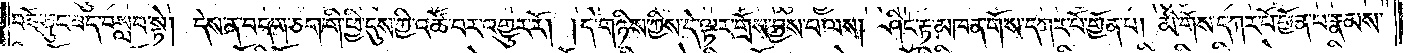བཟོ་ཅུང་ཟད་བསླབ་སྟེ། དེས་ན་བདག་ཅག་གི་ཕྱི་དུས་ཀྱི་འཚོ་བར་འགྱུར་རོ། །དེ་གཉིས་ཀྱིས་དེ་ལྟར་གྲོས་བྱས་པ་ལས། ཤིང་རྟ་མཁན་གོས་དཀར་པོ་གྱོན་པ། མི་གོས་དཀར་པོ་གྱོན་པ་རྣམས་
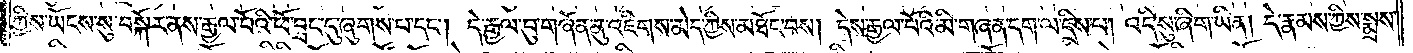ཀྱིས་ཡོངས་སུ་བསྐོར་ནས་རྒྱལ་པོའི་ཕོ་བྲང་དུ་ཞུགས་པ་དང༌། དེ་རྒྱལ་བུ་གཞོན་ནུ་འཇིགས་མེད་ཀྱིས་མཐོང་བས། དེས་རྒྱལ་པོའི་མི་གཞན་དག་ལ་དྲིས་པ། འདི་སུ་ཞིག་ཡིན། དེ་རྣམས་ཀྱིས་སྨྲས་
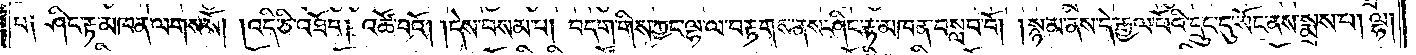པ༑ ཤིང་རྟ་མཁན་ལགས་སོ། །འདི་ཅི་འཐོབ། འཚོ་བའོ། །དེས་བསམ་པ། བདག་གིས་ཀྱང་ལྷ་ལ་བརྟགས་ནས་ཤིང་རྟ་མཁན་བསླབ་བོ། །སྙམ་ནས་དེ་རྒྱལ་པོའི་དྲུང་དུ་སོང་ནས་སྨྲས་པ། ལྷ།
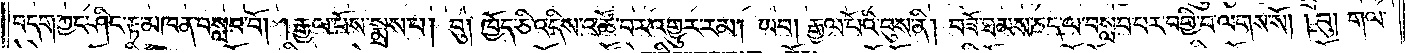བདག་ཀྱང་ཤིང་རྟ་མཁན་བསླབ་བོ། །རྒྱལ་པོས་སྨྲས་པ། བུ། ཁྱོད་ཅི་འདིས་འཚོ་བར་འགྱུར་རམ། ཡབ། རྒྱལ་པོའི་བུས་ནི། བཟོ་ཐམས་ཅད་ལ་བསླབ་པར་བགྱི་བ་ལགས་སོ། །བུ། གལ་
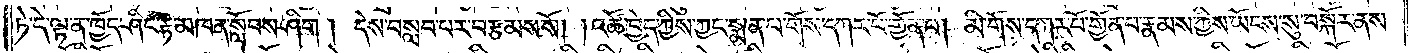ཏེ་དེ་ལྟ་ན་ཁྱོད་ཤིང་རྟ་མཁན་སློབས་ཤིག །དེས་བསླབ་པར་བརྩམས་སོ། །འཚོ་བྱེད་ཀྱིས་ཀྱང་སྨན་པ་གོས་དཀར་པོ་གྱོན་པ། མི་གོས་དཀར་པོ་གྱོན་པ་རྣམས་ཀྱིས་ཡོངས་སུ་བསྐོར་ནས་
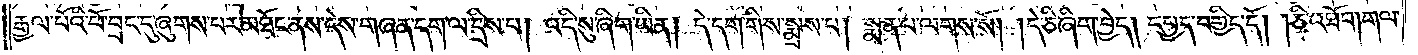རྒྱལ་པོའི་ཕོ་བྲང་དུ་ཞུགས་པར་མཐོང་ནས་དེས་གཞན་དག་ལ་དྲིས་པ། འདི་སུ་ཞིག་ཡིན། དེ་དག་གིས་སྨྲས་པ། སྨན་པ་ལགས་སོ། །དེ་ཅི་ཞིག་བྱེད། དཔྱད་བགྱིད་དོ། །ཅི་འཐོབ། གལ་
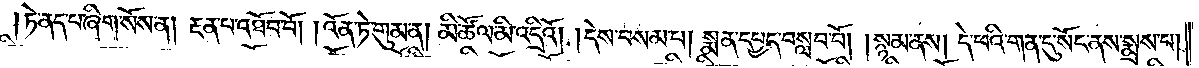ཏེ་ནད་པ་ཞིག་སོས་ན། རྔན་པ་འཐོབ་བོ། །འོན་ཏེ་གུམ་ན། མི་ཚོལ་མི་འདྲིའོ། །དེས་བསམ་པ། སྨན་དཔྱད་བསླབ་བོ། །སྙམ་ནས། དེ་བའི་གན་དུ་སོང་ནས་སྨྲས་པ།
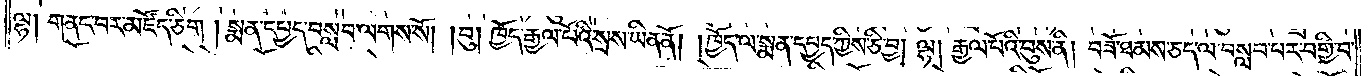ལྷ། གནང་བར་མཛོད་ཅིག །སྨན་དཔྱད་བསླབ་ལགས་སོ། །བུ། ཁྱོད་རྒྱལ་པོའི་སྲས་ཡིན་ནོ། །ཁྱོད་ལ་སྨན་དཔྱད་ཀྱིས་ཅི་བྱ། ལྷ། རྒྱལ་པོའི་བུས་ནི། བཟོ་ཐམས་ཅད་ལ་བསླབ་པར་བགྱི་བ་
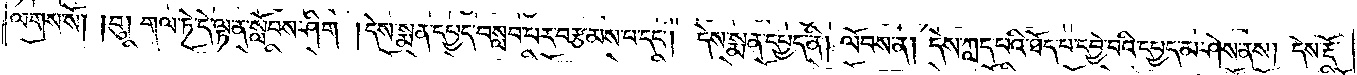ལགས་སོ། །བུ། གལ་ཏེ་དེ་ལྟ་ན་སློབས་ཤིག །དེས་སྨན་དཔྱད་བསླབ་པར་བརྩམས་པ་དང༌། དེས་སྨན་དཔྱད་ནི། ལོབས་ན། དེས་ཀླད་པའི་ཐོད་པ་དབྱེ་བའི་དཔྱད་མ་ཤེས་ནས། དེས་རྡོ་
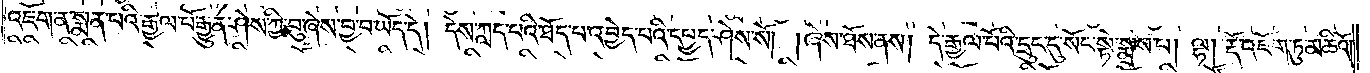འཇོག་ན་སྨན་པའི་རྒྱལ་པོ་རྒྱུན་ཤེས་ཀྱི་བུ་ཞེས་བྱ་བ་ཡོད་དེ། །དེས་ཀླད་པའི་ཐོད་པ་འབྱེད་པའི་དཔྱད་ཤེས་སོ། །ཞེས་ཐོས་ནས། དེ་རྒྱལ་པོའི་དྲུང་དུ་སོང་སྟེ་སྨྲས་པ། ལྷ། རྡོ་འཇོག་ཏུ་མཆིའོ།
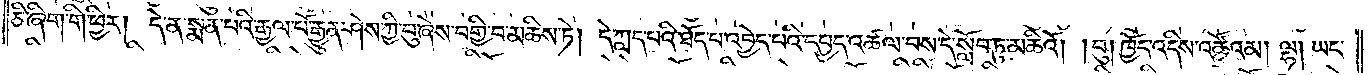ཅི་ཞིག་གི་ཕྱིར། དེ་ན་སྨན་པའི་རྒྱལ་པོ་རྒྱུན་ཤེས་ཀྱི་བུ་ཞེས་བགྱི་བ་མཆིས་ཏེ། དེ་ཀླད་པའི་ཐོད་པ་འབྱེད་པའི་དཔྱད་འཚལ་བས་དེ་སློབ་ཏུ་མཆིའོ། །བུ། ཁྱོད་འདིས་འཚོའམ། ལྷ། ཡང་
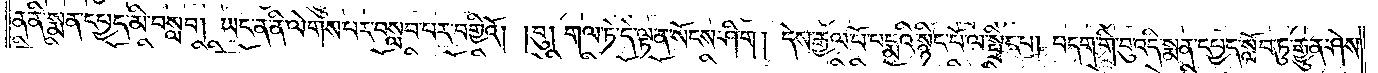ན་ནི་སྨན་དཔྱད་མི་བསླབ། ཡང་ན་ནི་ལེགས་པར་བསླབ་པར་བགྱིའོ། །བུ། གལ་ཏེ་དེ་ལྟ་ན་སོངས་ཤིག །དེས་རྒྱལ་པོ་པདྨའི་སྙིང་པོ་ལ་སྤྲིང་པ། བདག་གི་བུ་འདི་སྨན་དཔྱད་སློབ་ཏུ་རྒྱུན་ཤེས་
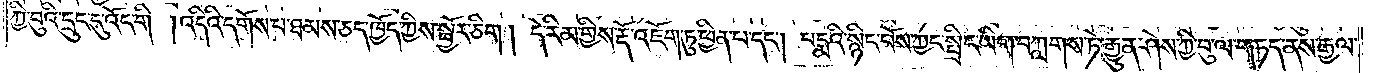ཀྱི་བུའི་དྲུང་དུ་འོང་གི །འདིའི་དགོས་པ་ཐམས་ཅད་ཁྱོད་ཀྱིས་སྦྱོར་ཅིག །དེ་རིམ་གྱིས་རྡོ་འཇོག་ཏུ་ཕྱིན་པ་དང༌། པདྨའི་སྙིང་པོས་ཀྱང་སྤྲིང་ཡིག་བཀླགས་ཏེ་རྒྱུན་ཤེས་ཀྱི་བུ་ལ་གཏད་ནས་རྒྱལ་
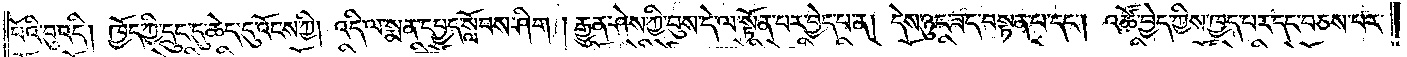པོའི་བུ་འདི། ཁྱོད་ཀྱི་དྲུང་དུ་ཆེད་དུ་འོངས་ཀྱི། འདི་ལ་སྨན་དཔྱད་སློབས་ཤིག །རྒྱུན་ཤེས་ཀྱི་བུས་དེ་ལ་སྟོན་པར་བྱེད་པ་ན། དེས་ཉུང་ཟད་བསྟན་པ་དང༌། འཚོ་བྱེད་ཀྱིས་ཁྱད་པར་དང་བཅས་པར་
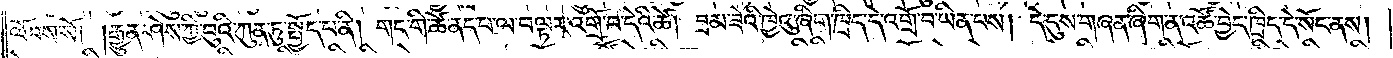ལོབས་སོ། །རྒྱུན་ཤེས་ཀྱི་བུའི་ཀུན་ཏུ་སྤྱོད་པ་ནི། གང་གི་ཚེ་ནད་པ་ལ་བལྟར་འགྲོ་བ་དེའི་ཚེ། བྲམ་ཟེའི་ཁྱེའུ་ཞིག་ཁྲིད་དེ་འགྲོ་བ་ཡིན་པས། དེ་དུས་གཞན་ཞིག་ན་འཚོ་བྱེད་ཁྲིད་དེ་སོང་ནས།
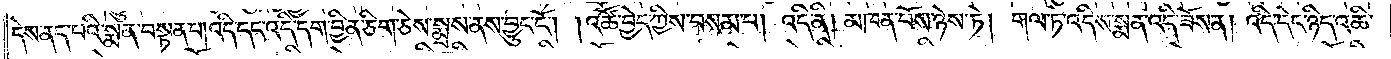དེས་ནད་པའི་སྨན་བསྟན་པ། འདི་དང་འདི་དག་བྱིན་ཅིག་ཅེས་སྨྲས་ནས་བྱུང་ངོ༌། །འཚོ་བྱེད་ཀྱིས་བསམ་པ། འདི་ནི། མཁན་པོས་ཉེས་ཏེ། གལ་ཏེ་འདིས་སྨན་འདི་ཟོས་ན། འདི་དེང་ཉིད་འཆི་
